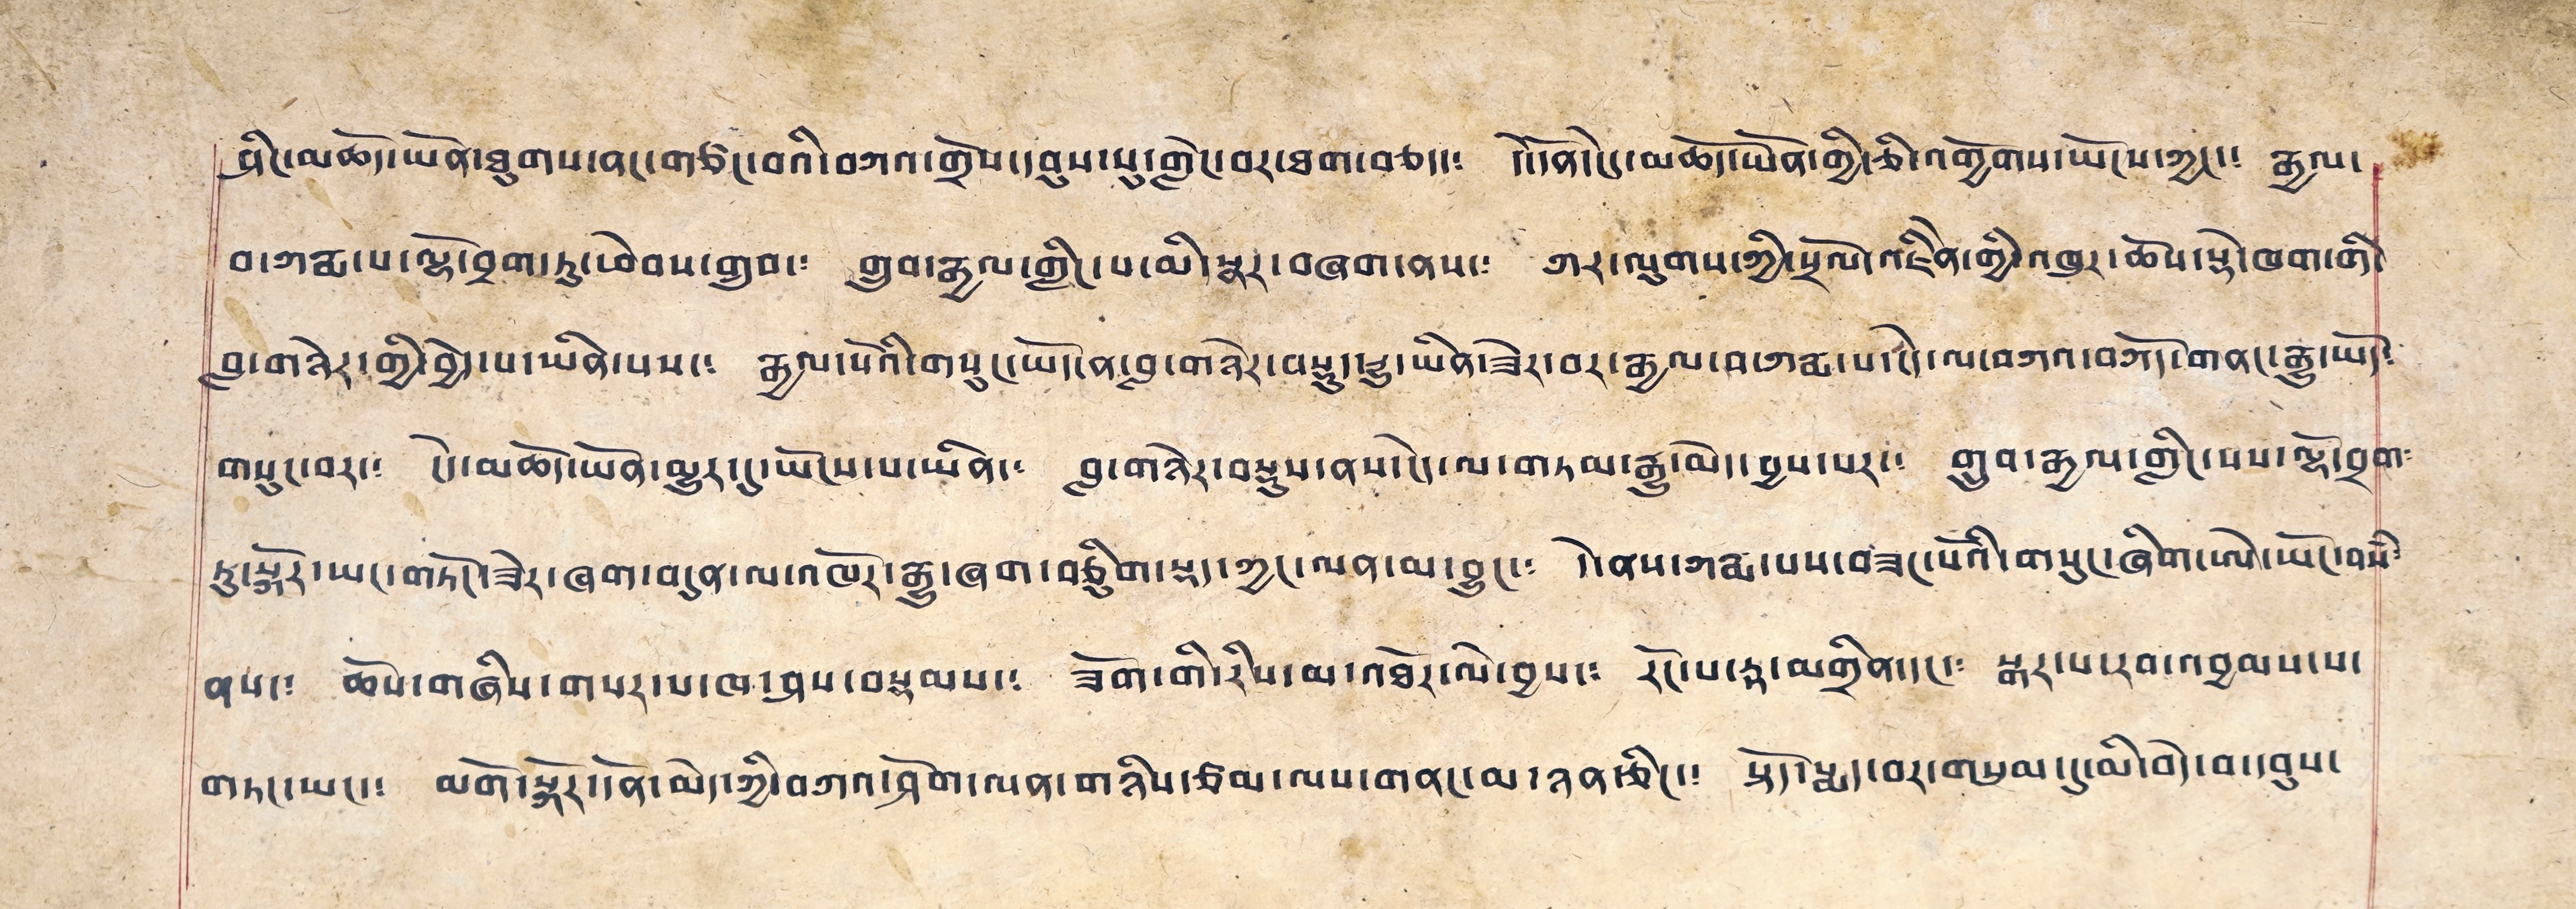ཤིང་མཆོད་ཡོན་ཐུགས་ནང་གཙང་བའི་བཀའ་གྲོས་དབུས་སུ་གླེང་བར་ཐག་བཅད་༴ དེ་དོན་ངེདུ་མཆོད་ཡོན་གྱི་ཅི་འགྱོགས་ཡོངས་ཀྱང་༴ རྒྱལ་
བ་ཀརྨ་པ་ལྷོ་བྲག་ཏུ་ཕེབས་གྲུབ་༴ གྲུབ་རྒྱལ་གྱིང་པ་མི་སྣར་བཞག་ནས་༴ ཀར་ལུགས་ཀྱི་སྲོལ་འཇིནེ་གྱི་འཁུར་ཆོས་སྡེ་ཁག་གི་
བླ་གཉེར་གྱི་བྱེད་པ་ཡིན་པས་༴ རྒྱལ་པོའི་གསུང་ཡ་དོན་བླ་གཉེར་བརྡུད་རྒྱུ་ཡིན་ཟེར་བར་རྒྱལ་བ་ཀརྨ་པ་ངེད་ལ་བཀའ་བཀོད་གནང་རྒྱུ་ཡོད་
གསུང་བར་༴ ངེད་མཆོད་ཡོན་མྱུར་དུ་ཡོངས་པ་ཡིན་༴ བླ་གཉེར་བརྡུས་ནས་ངེད་ལ་གཏམ་རྒྱུ་མེད་བྱས་པར་༴ གྲུབ་རྒྱལ་གླིང་པས་ལྷོ་བྲག་
ཏུ་སྐོར་ཡང་གཏོང་ཟེར་ཞག་བདུན་ལ་འཁོར་རྒྱུ་ཞག་བཅིུག་སྡད་ཀྱང་ལན་མ་བྱུང་༴ དེ་ནས་ཀརྨ་པས་བཟང་པོའི་གསུང་ཞིག་ཨེ་ཡོང་བསཾ་
ནས་༴ ཆོས་གཞིས་གསར་པ་ཁ་ཤས་བསྡམས་༴ ཟོག་གི་རིས་མ་འཐོར་ལེ་བྱས་༴ རོང་པ་རྟ་མགྲིན་དང་༴ སྒར་པ་རབ་འབྱམས་པ་
གཏང་ཡང་༴ མགོ་སྐོར་དོན་མེད་ཀྱི་བཀའ་ཤོག་ལན་གཉིས་ཙམ་ལས་གནང་མ་ཉན་ཅིང་༴ སྟོད་སྨད་བར་གསུམ་དུ་མི་བདེ་བ་དབུས་
